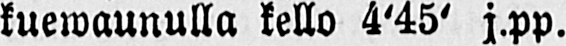kuewaunulla kello 4’45’ j.pp.
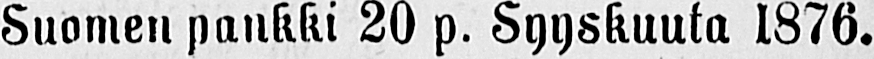Suomen, pankki 20 p. Syyskuuta 1876.
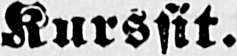Kurssit.
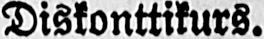Diskonttikurs.
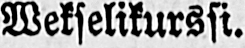Wekselikurssi.
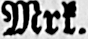Mrk.
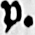p.
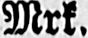Mrk.
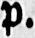p.
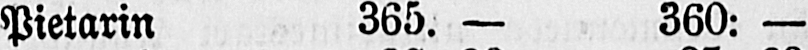Pietarin 365. — 360: —
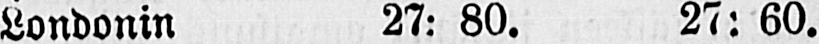Londonin 27: 80. 27: 60.
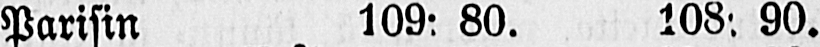Parisin 109: 80. 108. 90.
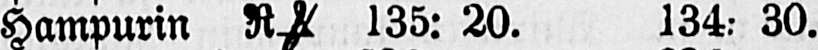Hampurin R& 135: 20. 134: 30.
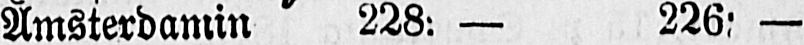Amsterdamin 228: — 226: —
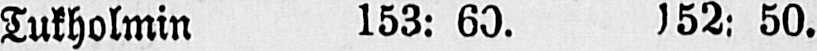Tukholmin 153: 60. 152: 50.
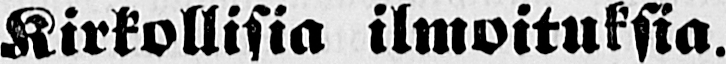Kirkollisia ilmoituksia.
